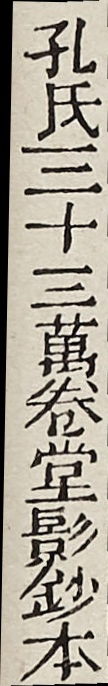孔氏三十三萬卷堂影鈔本
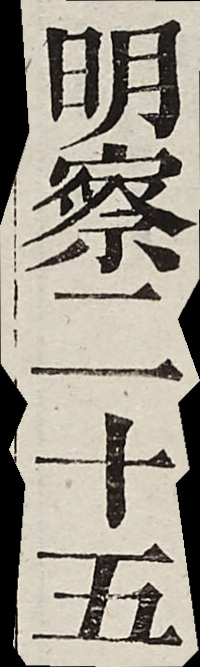明察二十五
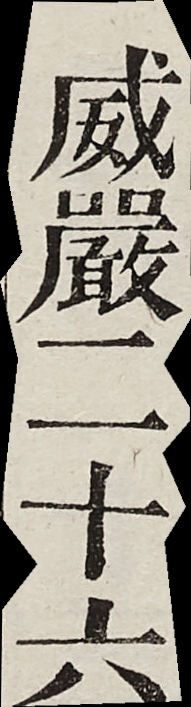威嚴二十六
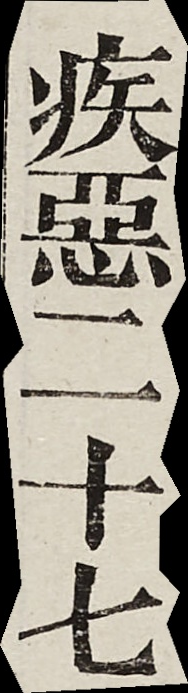疾惡二十七
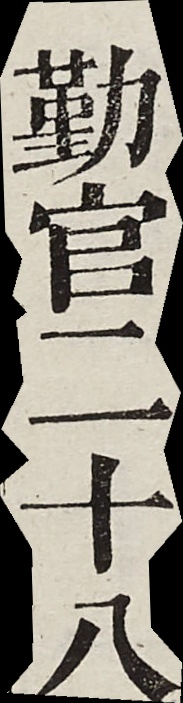勤官二十八
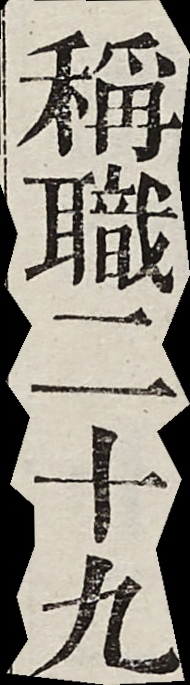稱職二十九
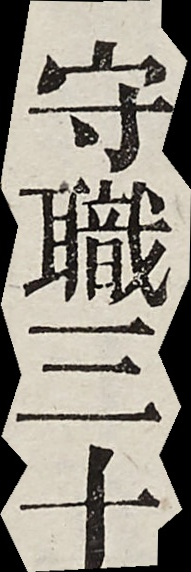守職三十
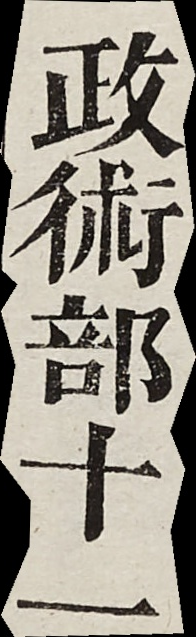政術部十一
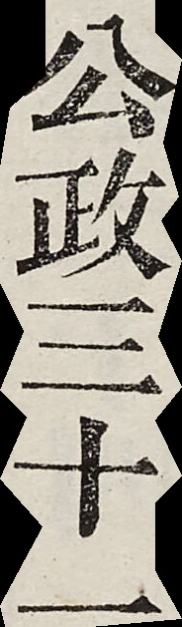公政三十一
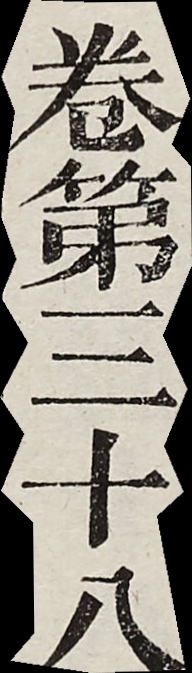卷第三十八
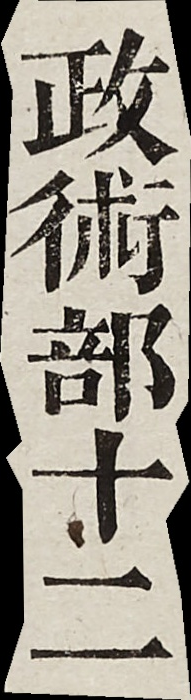政術部十二
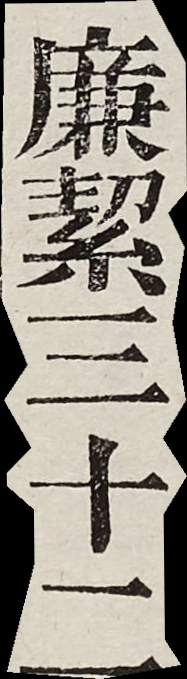廉潔三十二
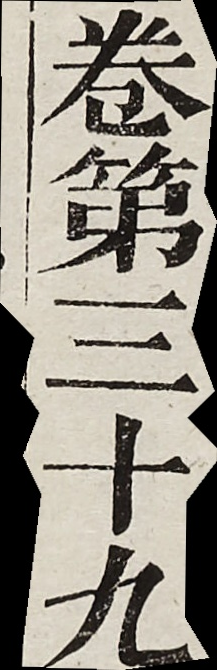卷第三十九
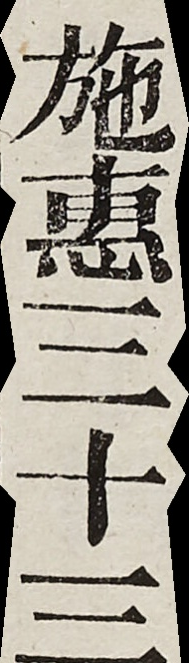施惠三十三
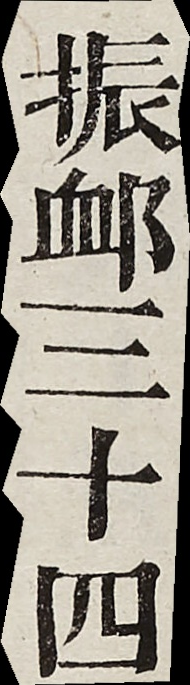賑恤三十四
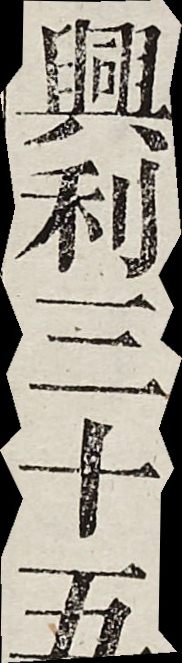興利三十五
